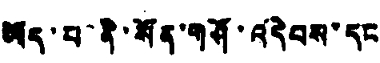ཡོད་པ་ནི་སོན་གཤོ་འདེབས་དང་
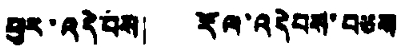ཕུར་འདེབས། རོལ་འདེབས་བཅས
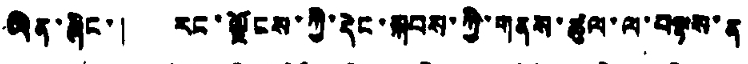ཡིན་ཞིང་། རང་ལྗོངས་ཀྱི་དེང་སྐབས་ཀྱི་གནས་ཚུལ་ལ་གསྟས་ན
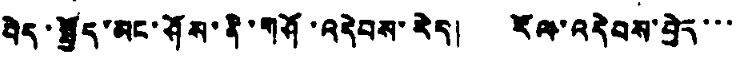བེད་སྤྱོད་མང་ཤོས་ནི་གཤོ་འདེབས་རེད། རོལ་འདེབས་བྱེད་་་
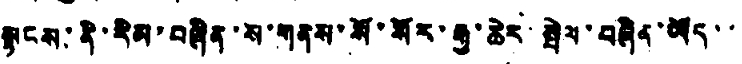སྟངས་ནི་རིམ་བཞིན་ས་གནས་སོ་སོར་རྒྱ་ཆེར་སྤེལ་བཞིན་ཡོད་་
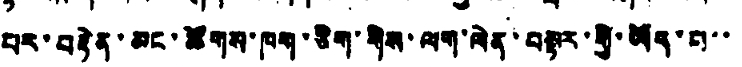པར་བརྟེན་མང་ཚོགས་ཁག་ཅིག་གིས་ལག་ལེན་བསྟར་གྱི་ཡོད་པ་་
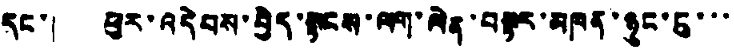དང་། ཕུར་འདེབས་བྱེད་སྟངས་ལག་ལེན་བསྟར་མཁན་ཉུང་ངུ་་་
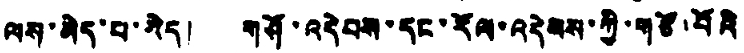ལས་མེད་པ་རེད། གཤོ་འདེབས་དང་རོལ་འདེབས་ཀྱི་གཙོ་བོའི
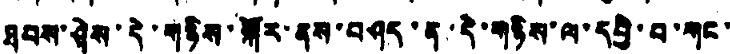ཐབས་ཤེས་དེ་གཉིས་སྐོར་ནས་བཤད་ན་དེ་གཉིས་ལ་དབྱེ་བ་གང་
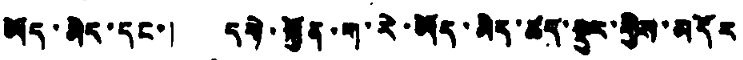ཡོད་མེད་དང་། དགེ་སྐྱོན་ག་རེ་ཡོད་མེད་ཚད་སྡུར་གྱིས་མདོར
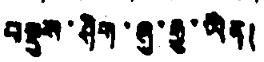བསྡུས་ཤིག་ཞུ་རྒྱུ་ཡིན།
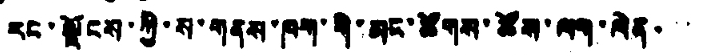རང་ལྗོངས་ཀྱི་ས་གནས་ཁག་གི་མང་ཚོགས་ཚོས་ལག་ལེན་་་
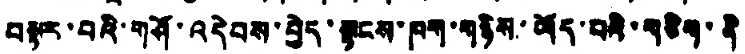བསྟར་བའི་གཤོ་འདེབས་བྱེད་སྟངས་ཁག་གཉིས་ཡོད་པའི་གཅིག་ནི
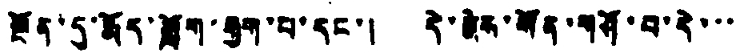སྔོན་དུ་རྨོད་སློག་རྒྱག་པ་དང་། དེ་རྗེས་སོན་གཤོ་བ་དེ་་་
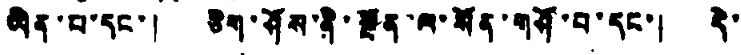ཡིན་པ་དང་། ཅིག་ཤོས་ནི་སྔོན་ལ་སོན་གཤོ་བ་དང་། དེ་
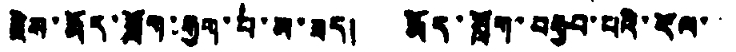རྗེས་རྨོད་སློག་རྒྱག་པ་མ་ཟད། རྨོད་སློག་བརྒྱབ་པའི་རོལ་་་
